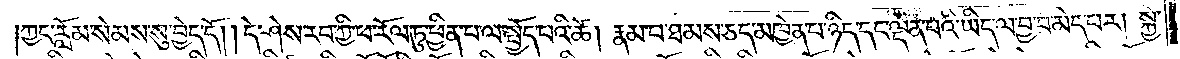ཀྱང་རློམ་སེམས་སུ་བྱེད་དོ། །དེ་ཤེས་རབ་ཀྱི་ཕ་རོལ་ཏུ་ཕྱིན་པ་ལ་སྤྱོད་པའི་ཚེ། རྣམ་པ་ཐམས་ཅད་མཁྱེན་པ་ཉིད་དང་ལྡན་པའི་ཡིད་ལ་བྱ་བ་མེད་པར། སྐྱེ་
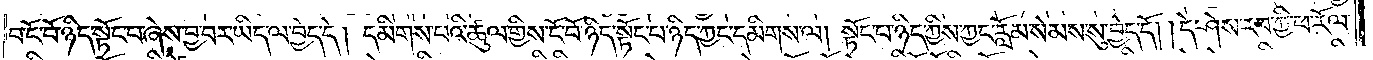བ་ངོ་བོ་ཉིད་སྟོང་པ་ཞེས་བྱ་བར་ཡིད་ལ་བྱེད་དེ། དམིགས་པའི་ཚུལ་གྱིས་ངོ་བོ་ཉིད་སྟོང་པ་ཉིད་ཀྱང་དམིགས་ལ། སྟོང་པ་ཉིད་ཀྱིས་ཀྱང་རློམ་སེམས་སུ་བྱེད་དོ། །དེ་ཤེས་རབ་ཀྱི་ཕ་རོལ་
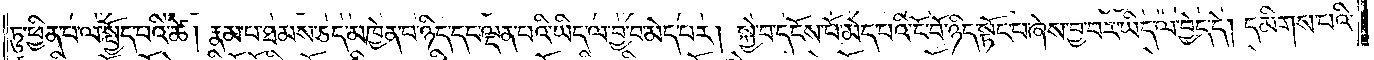ཏུ་ཕྱིན་པ་ལ་སྤྱོད་པའི་ཚེ། རྣམ་པ་ཐམས་ཅད་མཁྱེན་པ་ཉིད་དང་ལྡན་པའི་ཡིད་ལ་བྱ་བ་མེད་པར། སྐྱེ་བ་དངོས་པོ་མེད་པའི་ངོ་བོ་ཉིད་སྟོང་པ་ཞེས་བྱ་བར་ཡིད་ལ་བྱེད་དེ། དམིགས་པའི་
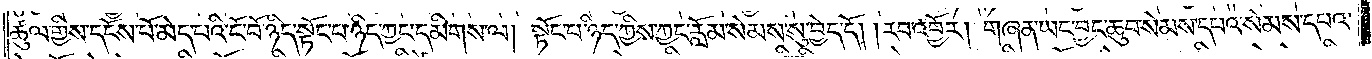ཚུལ་གྱིས་དངོས་པོ་མེད་པའི་ངོ་བོ་ཉིད་སྟོང་པ་ཉིད་ཀྱང་དམིགས་ལ། སྟོང་པ་ཉིད་ཀྱིས་ཀྱང་རློམ་སེམས་སུ་བྱེད་དོ། །རབ་འབྱོར། གཞན་ཡང་བྱང་ཆུབ་སེམས་དཔའ་སེམས་དཔའ་
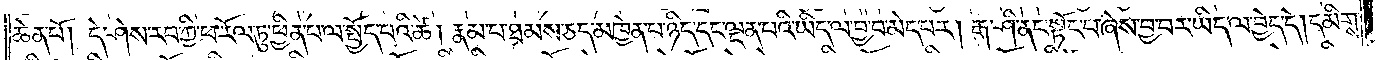ཆེན་པོ། དེ་ཤེས་རབ་ཀྱི་ཕ་རོལ་ཏུ་ཕྱིན་པ་ལ་སྤྱོད་པའི་ཚེ། རྣམ་པ་ཐམས་ཅད་མཁྱེན་པ་ཉིད་དང་ལྡན་པའི་ཡིད་ལ་བྱ་བ་མེད་པར། རྒ་ཤི་ནང་སྟོང་པ་ཞེས་བྱ་བར་ཡིད་ལ་བྱེད་དེ། དམིགས་
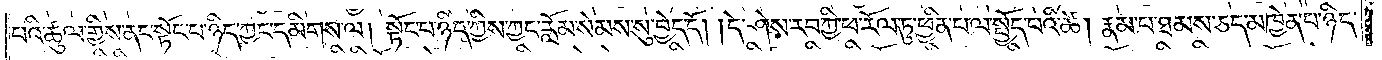པའི་ཚུལ་གྱིས་ནང་སྟོང་པ་ཉིད་ཀྱང་དམིགས་ལ། སྟོང་པ་ཉིད་ཀྱིས་ཀྱང་རློམ་སེམས་སུ་བྱེད་དོ། །དེ་ཤེས་རབ་ཀྱི་ཕ་རོལ་ཏུ་ཕྱིན་པ་ལ་སྤེད་པའི་ཚེ། རྣམ་པ་ཐམས་ཅད་མཁྱེན་པ་ཉིད་
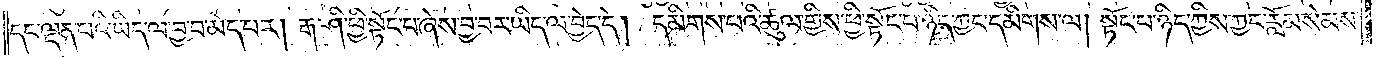དང་ལྡན་པའི་ཡིད་ལ་བྱ་བ་མེད་པར། རྒ་ཤི་ཕྱི་སྟོང་པ་ཞེས་བྱ་བར་ཡིད་ལ་བྱེད་དེ། དམིགས་པའི་ཚུལ་གྱིས་ཕྱེ་སྟོང་པ་ཉིད་ཀྱང་དམིགས་ལ། སྟོང་པ་ཉིད་ཀྱིས་ཀྱང་རློམ་སེམས་
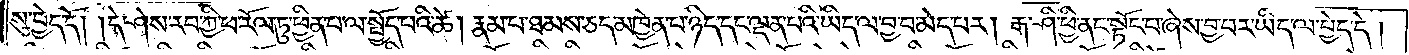སུ་བྱེད་དོ། །དེ་ཤེས་རབ་ཀྱི་ཕ་རོལ་ཏུ་ཕྱིན་པ་ལ་སྤྱོད་པའི་ཚེ། རྣམ་པ་ཐམས་ཅད་མཁྱེན་པ་ཉིད་དང་ལྡན་པའི་ཡིད་ལ་བྱ་བ་མེད་པར། རྒ་ཤི་ཕྱི་ནང་སྟོང་པ་ཞེས་བྱ་བར་ཡིད་ལ་བྱེད་དེ།
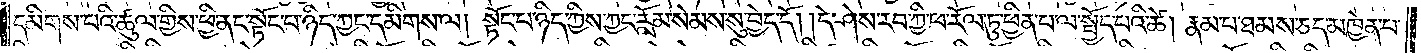དམིགས་པའི་ཚུལ་གྱིས་ཕྱི་ནང་དོ་སྟང་པ་ཉིད་ཀྱང་དམིགས་ལ། སྟོང་པ་ཉིད་ཀྱིས་ཀྱང་རློམ་སེམས་སུ་བྱེད་དོ། །དེ་ཤེས་རབ་ཀྱི་ཕ་རོལ་ཏུ་ཕྱིན་པ་ལ་སྤྱོད་པའི་ཚེ། རྣམ་པ་ཐམས་ཅད་མཁྱེན་པ་
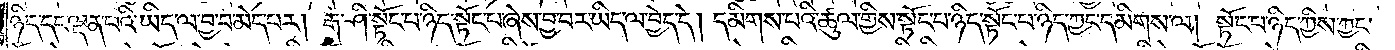ཉིད་དང་ལྡན་པའི་ཡིད་ལ་བྱ་བ་མེད་པར། རྒ་ཤི་སྟོང་པ་ཉིད་སྟོང་པ་ཞེས་བྱ་བར་ཡིད་ལ་བྱེད་དེ། དམིགས་པའི་ཚུལ་གྱིས་སྟོང་པ་ཉིད་སྟོང་པ་ཉིད་ཀྱང་དམིགས་ལ། སྟོང་པ་ཉིད་ཀྱིས་ཀྱང་
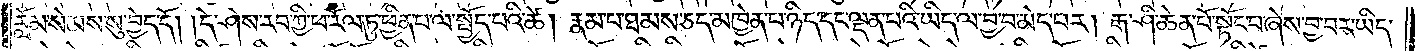རློམ་སེམས་སུ་བྱེད་དོ། །དེ་ཤེས་རབ་ཀྱི་ཕ་རོལ་ཏུ་ཕྱིན་པ་ལ་སྤྱོད་པའི་ཚེ། རྣམ་པ་ཐམས་ཅད་མཁྱེན་པ་ཉིད་དང་ལྡན་པའི་ཡིད་ལ་བྱ་བ་མེད་པར། རྒ་ཤི་ཆེན་པོ་སྟོང་པ་ཞེས་བྱ་བར་ཡིད་
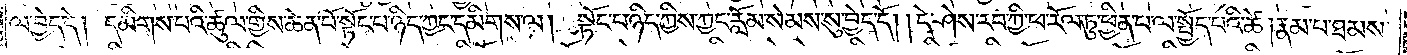ལ་བྱེད་དེ། དམིགས་པའི་ཚུལ་གྱིས་ཆེན་པོ་སྟོང་པ་ཉིད་ཀྱང་དམིགས་ལ། སྟོང་པ་ཉིད་ཀྱིས་ཀྱང་རློམ་སེམས་སུ་བྱེད་དོ། །དེ་ཤེས་རབ་ཀྱི་ཕ་རོལ་ཏུ་ཕྱིན་པ་ལ་སྤྱོད་པའི་ཚེ། རྣམ་པ་ཐམས་
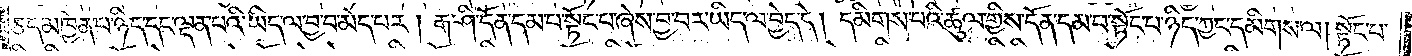ཅད་མཁྱེན་པ་ཉིད་དང་ལྡན་པའི་ཡིད་ལ་བྱ་བ་མེད་པར། རྒ་ཤི་དོན་དམ་པ་སྟོང་པ་ཞེས་བྱ་བར་ཡིད་ལ་བྱེད་དེ། དམིགས་པའི་ཚུལ་གྱིས་དོན་དམ་པ་སྟོང་པ་ཉིད་ཀྱང་དམིགས་ལ། སྟོང་པ་
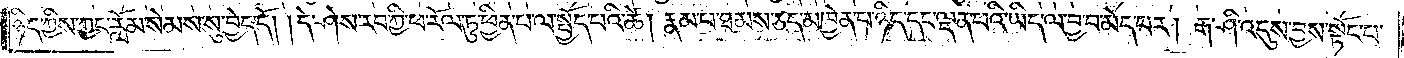ཉིད་ཀྱིས་ཀྱང་རློམ་སེམས་སུ་བྱེད་དོ། །དེ་ཤེས་རབ་ཀྱི་ཕ་རོལ་ཏུ་ཕྱིན་པ་ལ་སྤྱོད་པའི་ཚེ། རྣམ་པ་ཐམས་ཅད་མཁྱེན་པ་ཉིད་དང་ལྡན་པའི་ཡིད་ལ་བྱ་བ་མེད་པར། རྒ་ཤི་འདུས་བྱས་སྟོང་པ་
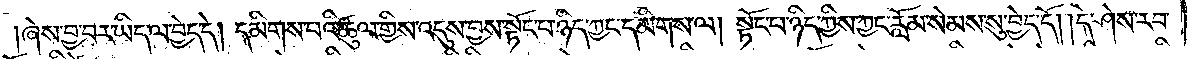ཞེས་བྱ་བར་ཡིད་ལ་བྱེད་དེ། དམིགས་པའི་ཚུལ་གྱིས་འདུས་བྱས་སྟོང་པ་ཉིད་ཀྱང་དམིགས་ལ། སྟོང་པ་ཉིད་ཀྱིས་ཀྱང་རློམ་སེམས་སུ་བྱེད་དོ། །དེ་ཤེས་རབ་
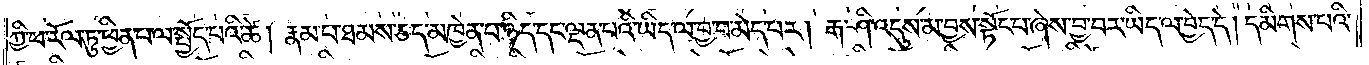ཀྱི་ཕ་རོལ་ཏུ་ཕྱིན་ཕ་ལ་སྦྱོད་པའི་ཚེ། རྣམ་པ་ཐམས་ཅད་མཁྱེན་པ་ཉིད་དང་ལྡན་པའི་ཡིད་ལ་བྱ་བ་མེད་པར། རྒ་ཤི་འདུས་མ་བྱས་སྟོང་པ་ཞེས་བྱ་བར་ཡིད་ལ་བྱེད་དེ། དམིགས་པའི་
